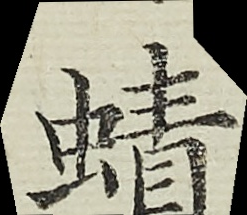鰿
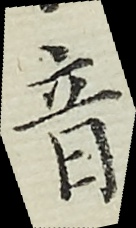音
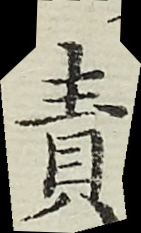責
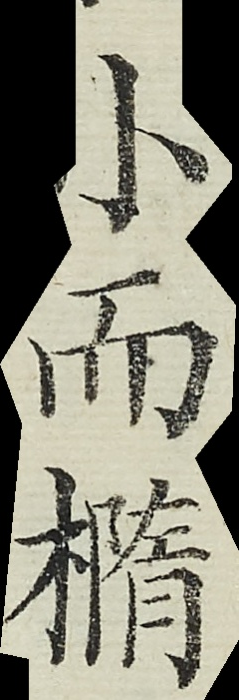小而橢
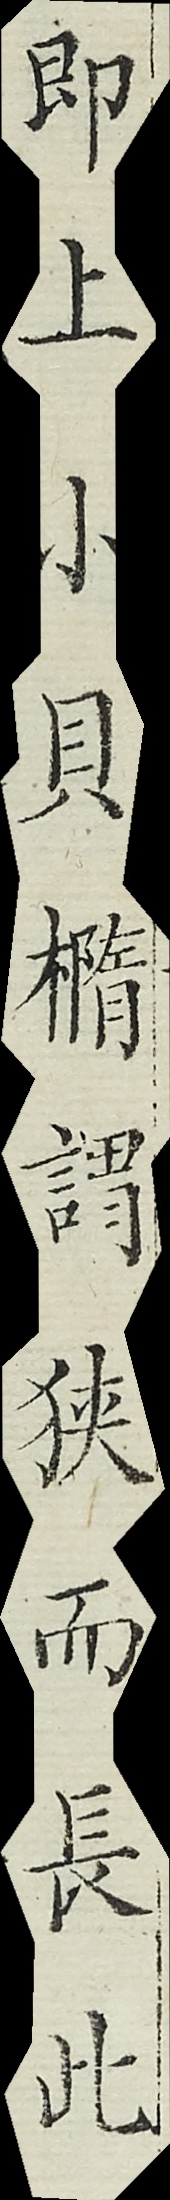即上小貝橢謂狹而長此
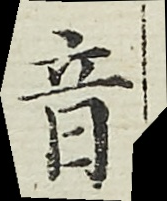音
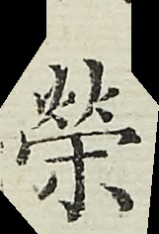榮
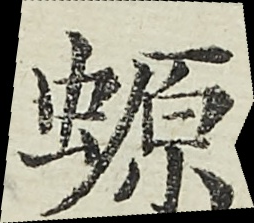螈
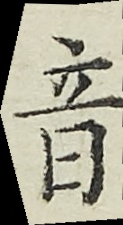音
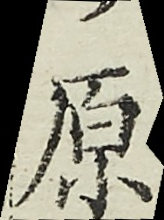原
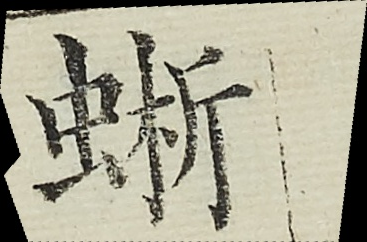蜥
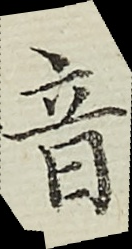音
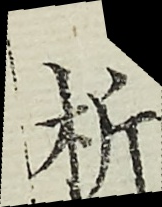析
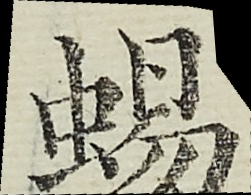蜴
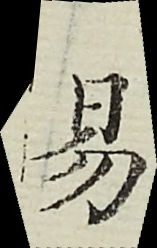易
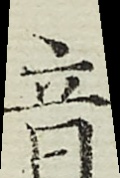音
